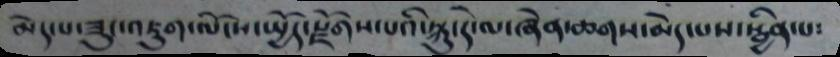མེད་པས་ཟུང་འཇུག་ལོངས་སྤྱོད་སྫོགས་པའི་སྐུ་དེ་ལ་ཞེན་ཆགས་མེད་པས་སྦྱིན་པ༴
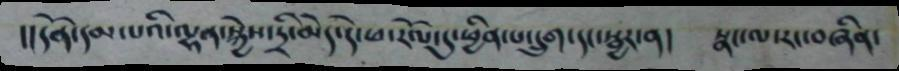།།དོན་དམ་པའི་ལྷན་སྐྱེས་དྲི་མེད་དེ་ཕ་རོལ་དུ་ཕྱིན་པ་དྲུག་དང་སྦྱར་ན། སྣང་ལ་རང་བཞིན་
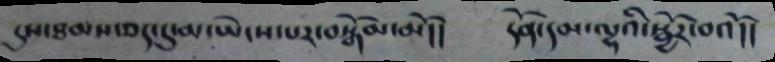དུས་ཐམས་ཅད་དུ་མ་ཡེངས་པར་བསྒོམ་མོ།། དོན་དམ་ལྷའི་སྦྱོར་བའོ།།
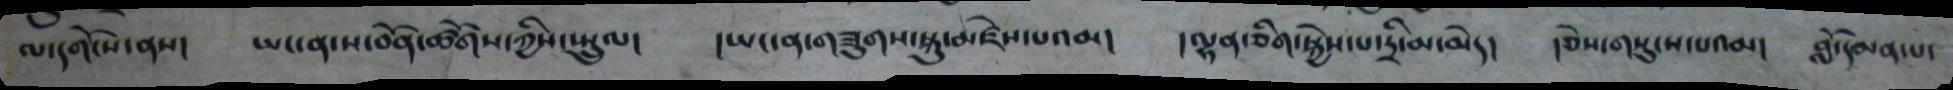ལ་དགོངས་ནས། ཡང་ནས་ས་བོན་ཚོགས་ཀྱིས་སྤྲུལ། །ཡང་ན་གཟུགས་སྐུ་མཛེས་པའམ། །ལྷན་ཅིག་སྐྱེས་པ་དྲི་མ་མེད། །ཅེས་གསུངས་པའམ། བློ་དམན་པ་
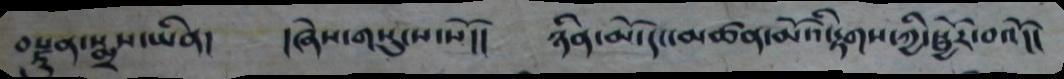བསྫུན་སྨྲས་ཡིན། །ཞེས་གསུངས་སོ།། ཉིན་མོ་དང་མཚན་མོའི་རྟགས་ཀྱི་སྦྱོར་བའོ།།
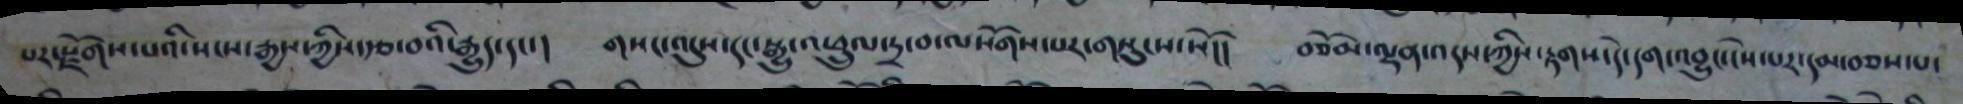པར་སྫོགས་པའི་སངས་རྒྱས་ཀྱིས་རྩ་བའི་རྒྱུད་དང་། གསང་འདུས་དང་སྒྱུ་འཕྲུལ་དྲ་བ་ལ་སོགས་པར་གསུངས་སོ།། བཅོམ་ལྡན་འདས་ཀྱིས་རྟགས་དེ་དག་འབྱུང་ངེས་པར་དམ་བཅས་པ་
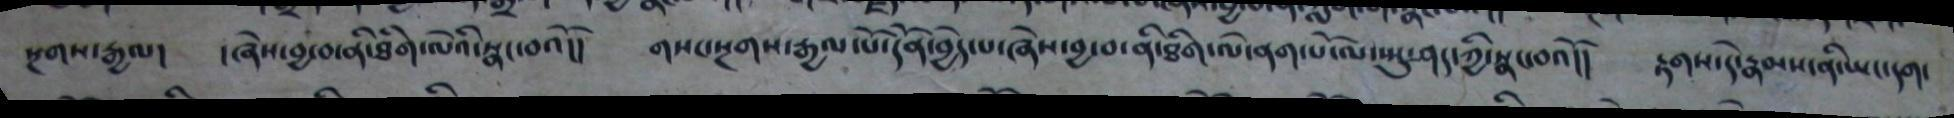སྔགས་རྒྱལ། །ཞེས་བྱ་བ་ནི་ཐིག་ལེའི་སྣང་བའོ།། གསང་སྔགས་རྒྱལ་པོ་དོན་བྱེད་པ་ཞེས་བྱ་བ་ནི་ཐིག་ལེ་ནག་པོ་ལ་སྤུ་ཤད་ཀྱི་སྣང་བའོ།། རྟགས་དེ་རྣམས་ནི་ཡང་དག་
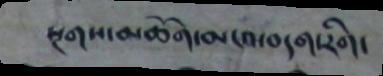སྔགས་མཆོག་མངའ་བདག་རིག་
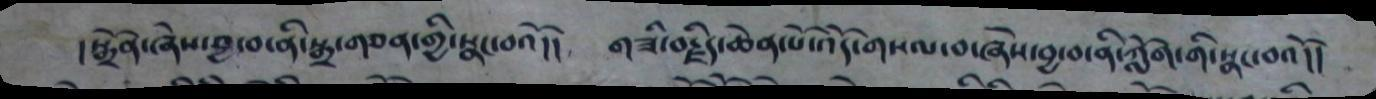།སྒྲོན་ཞེས་བྱ་བ་ནི་སྒྲ་གཅན་གྱི་སྣང་བའོ།། གཟི་བརྗིད་ཆེན་པོ་འོད་གསལ་བ་ཞེས་བྱ་བ་ནི་ཀློག་གི་སྣང་བའོ།།
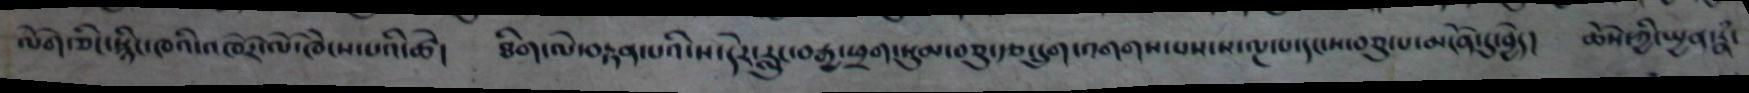ལོག་ཅིང་སྙིང་ཁའི་འཁོར་ལོ་ཁེངས་པའི་ཚེ། ཐིག་ལེ་བརྟག་པའི་ས་དེར་རླུང་བརྒྱ་ཕྲག་སུམ་བཅུ་དྲུག་འགགས་པས་ས་ལྔ་པ་དང་ས་བཅུ་པ་མངོན་དུ་བྱེས། ཆོས་ཀྱི་སྤྱན་རྣཾ་
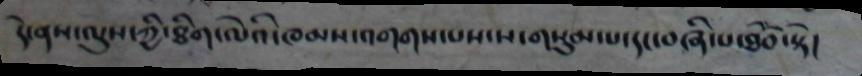དེ་ནས་ལུས་ཀྱི་ཐིག་ལེའི་ཁམས་འགགས་པས་ས་གསུམ་པ་དང་བཞི་པ་ཐོབ་སྟེ།
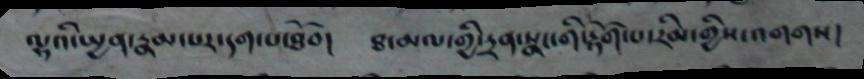ལྷའི་སྤྱན་རྣམ་པར་དག་པ་ཐོབ། ཐ་མལ་གྱི་དྲན་སྣང་གི་རྟོག་པ་རིམ་གྱིས་འགགས།
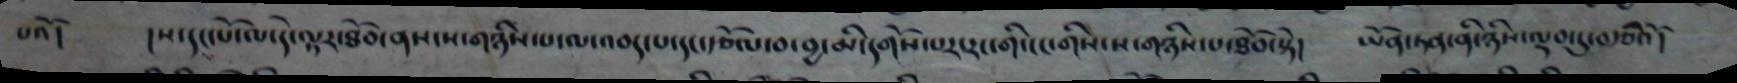པའོ། །ས་དང་པོ་ལ་དེ་ལྟར་ཐོབ་ནས་ས་གཉིས་པ་ལ་འབད་པ་དང་རྩོལ་བ་བྱ་མི་དགོས་པར་རང་གིས་ས་གཉིས་པ་ཐོབ་སྟེ། ཡོན་ཏན་ནི་ཉིས་ལྡབ་དུ་བརྩིའོ།
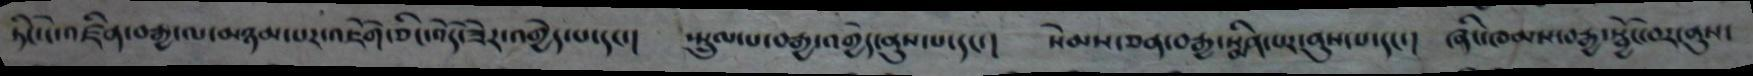ཏིང་ངེ་འཛིན་བརྒྱ་ལ་མཉམ་པར་འཇོག་ཅིང་འོད་ཟེར་འགྱེད་པ་དང་། སྤྲུལ་པ་བརྒྱ་འགྱེད་ནུས་པ་དང་། སེམས་ཅན་བརྒྱ་སྨིན་པར་ནུས་པ་དང་། ཞིང་ཁམས་བརྒྱ་སྦྱོང་བར་ནུས་
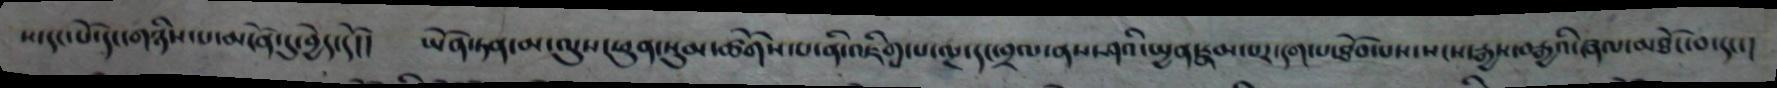ས་དང་པོ་དང་གཉིས་པ་མངོན་དུ་བྱེད་དོ།། ཡོན་ཏན་མ་ལུས་ཕུན་སུམ་ཚོགས་པ་ནི་འཇིག་པ་ལྔ་དང་བྲལ་ནས་ཤའི་སྤྱན་རྣམ་པར་དག་པ་ཐོབ་པས་སངས་རྒྱས་བརྒྱའི་ཞལ་མཐོང་བ་དང་།
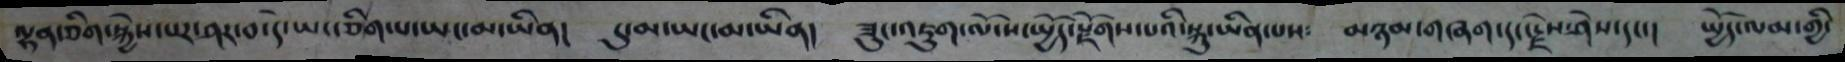ལྷན་ཅིག་སྐྱེས་པར་ཤར་བ་དེ་ཡང་ཅིག་པ་ཡང་མ་ཡིན། དུ་མ་ཡང་མ་ཡིན། ཟུང་འཇུག་ལོངས་སྤྱོད་སྫོགས་པའི་སྐུ་ཡིན་པས༴ མཉམ་གཞག་དང་རྗེས་ཤེས་དང་། སྤྱོད་ལམ་གྱི་
